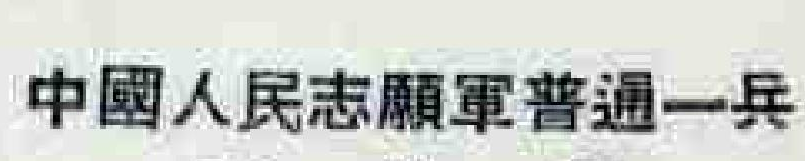中國人民志願軍普通一兵
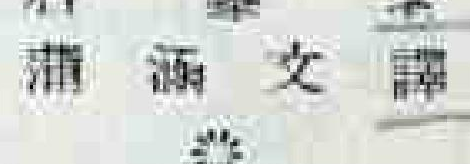蒲 涵 文 譯
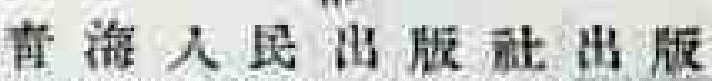靑 海 人 民 出 版 社 出 版
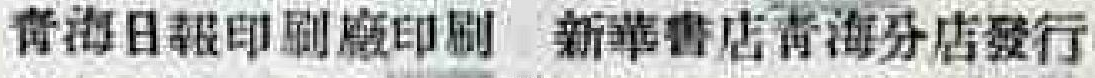靑海日報印刷廠印刷 新華書店靑海分店發行
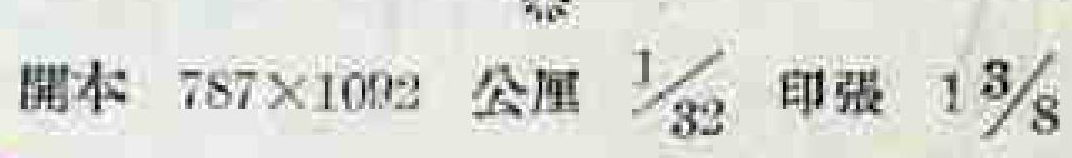開本 787×1092 公厘 1/32 印張 13/8
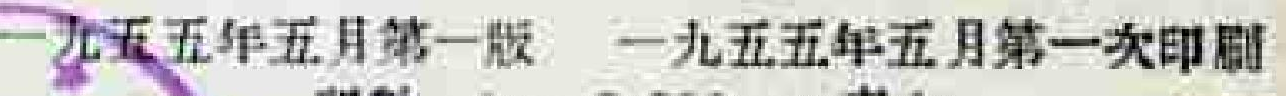一九五五年五月第一版 一九五五年五月第一次印刷
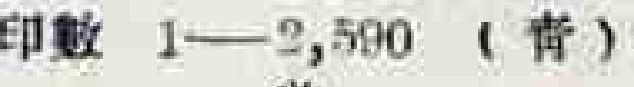印數 1——2,590 （靑）
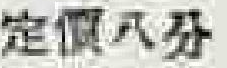定價八分
